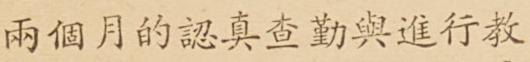兩個月的認真查勤與進行教
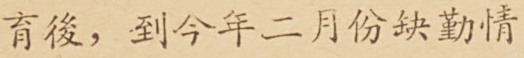育後，到今年二月份缺勤情
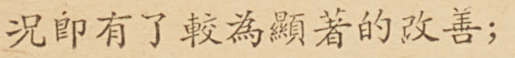況卽有了較爲顯著的改善；
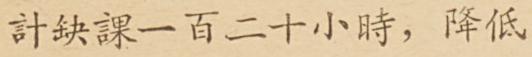計缺課一百二十小時，降低
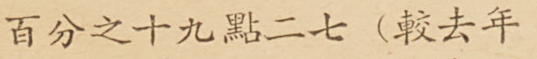百分之十九點二七（較去年
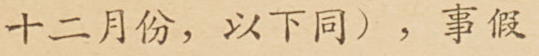十二月份，以下同），事假
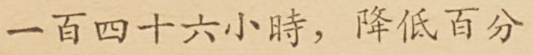一百四十六小時，降低百分
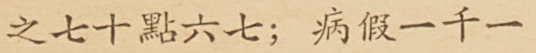之七十點六七；病假一千一
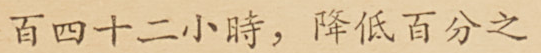百四十二小時，降低百分之
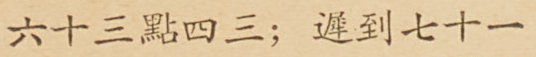六十三點四三；遲到七十一
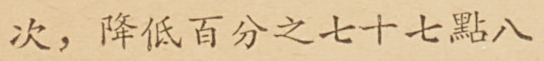次，降低百分之七十七點八
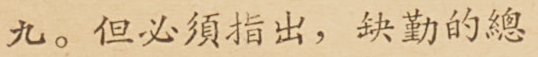九。但必須指出，缺勤的總
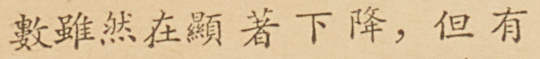數雖然在顯著下降，但有
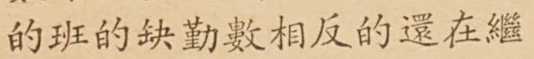的班的缺勤數相反的還在繼
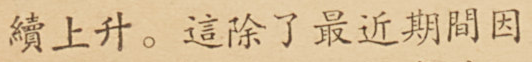續上升。這除了最近期間因
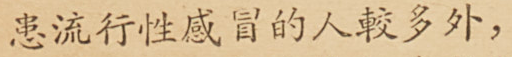患流行感冒的人較多外，
